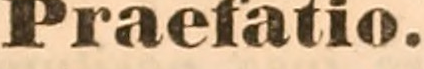Praefatio.
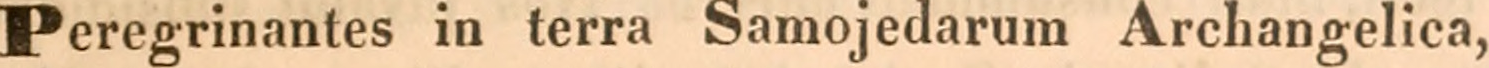Peregrinantes in terra Samojedarum Archangelica,
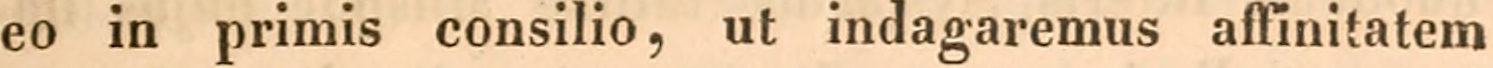eo in primis consilio, ut indagaremus assinitatem
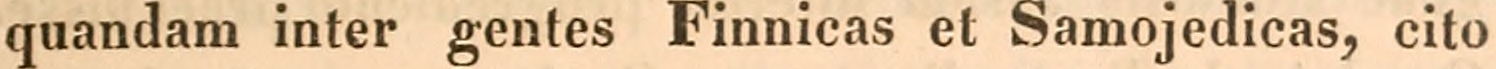quandam inter gentes Finnicas et Samojedicas, cito
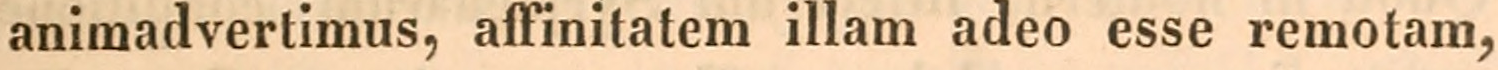animadvertimus, affinitatem illam adeo esse remotam,
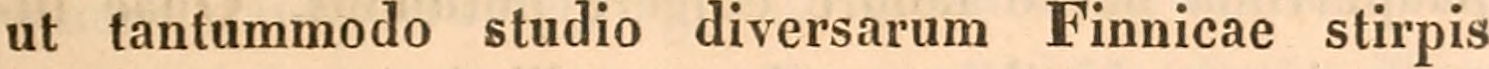ut tantummodo studio diversarum Finnicae stirpis
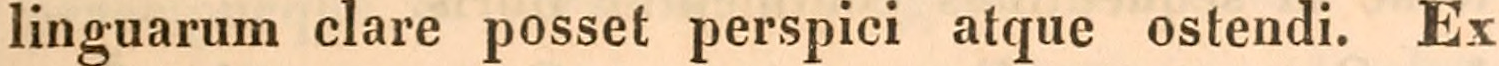linguarum clare posset perspici atque ostendi. Ex
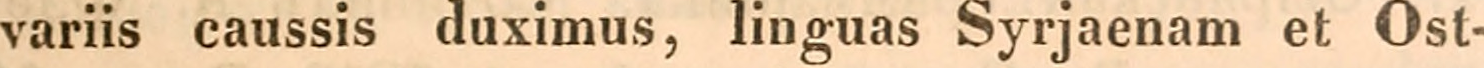variis caussis duximus, linguas Syrjaenam et Ost-
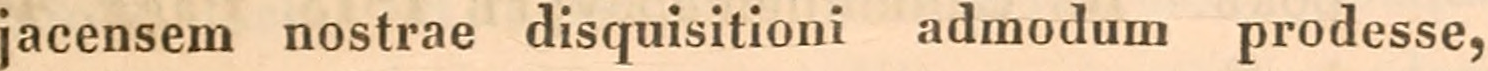jacensem nostrae disquisitioni admodum prodesse,
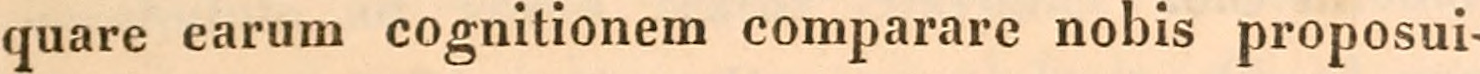quare earum cognitionem comparare nobis proposui-
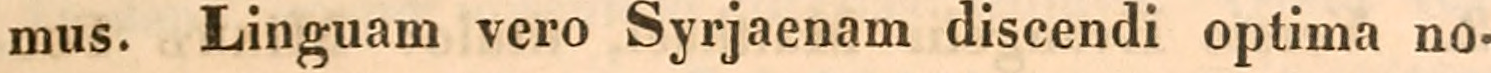mus. Linguam vero Syrjaenam discendi optima no-
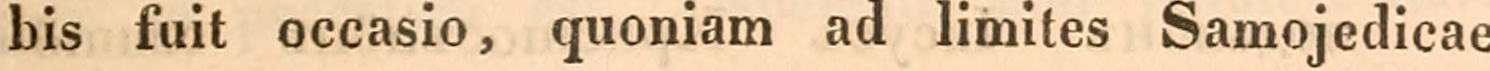bis fuit occasio, quoniam ad limites Samojedicae
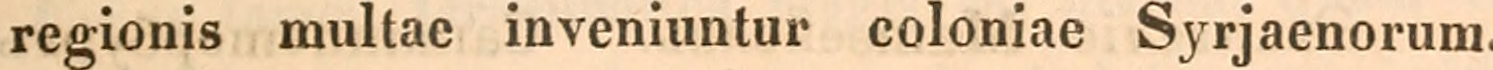regionis multae inveniuntur coloniae Syrjaenorum.
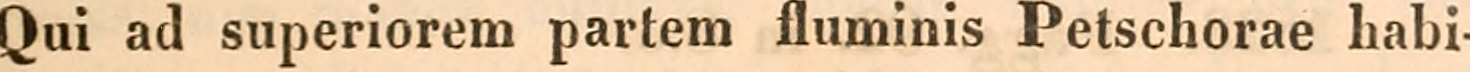Qui ad superiorem partem fluminis Petschorae habi-
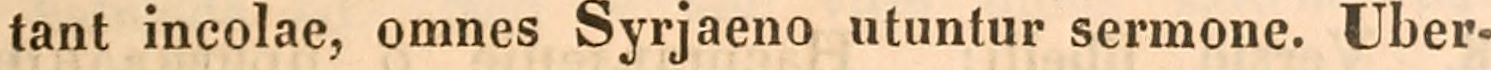tant incolae, omnes Syrjaeno utuntur sermone. Uber-
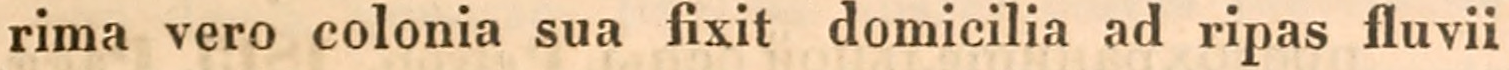rima vero colonia sua fixit domicilia ad ripas fluvii
